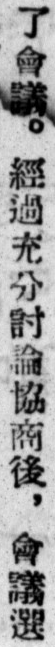了會議。經過充分討論協商後，會議選
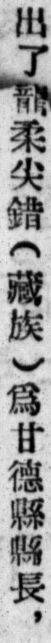出了龍柔尖錯（藏族）爲甘德縣縣長，
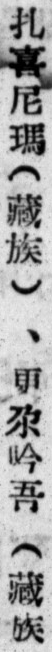扎喜尼瑪（藏族）、更尕吟吾（藏族
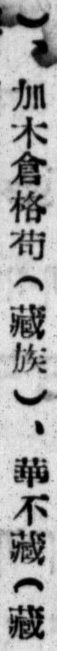）、加木倉格苟（藏族）、華不藏（藏
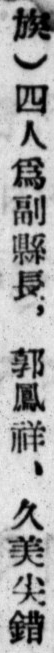族）四人爲副縣長，郭鳳祥、久美尖錯
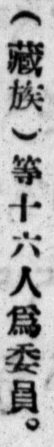（藏族）等十六人爲委員。
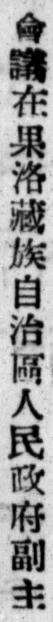會議在果洛藏族自治區人民政府副主
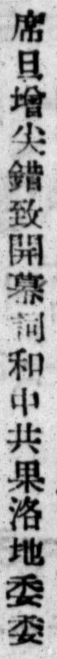席旦增尖錯致開幕詞和中共果洛地委委
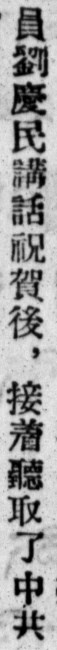員劉慶民講話祝賀後，接着聽取了中共
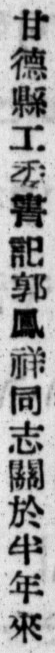甘德縣工委書記郭鳳祥同志關於半年來
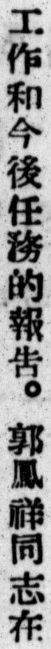工作和今後任務的報告。郭鳳祥同志在
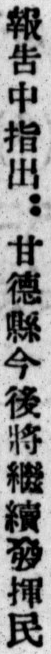報告中指出：甘德縣今後將繼續發揮民
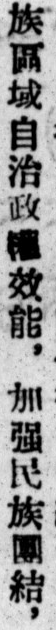族區域自治政權效能，加強民族團結，
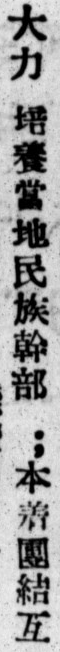大力 培養當地民族幹部 ；本着團結互
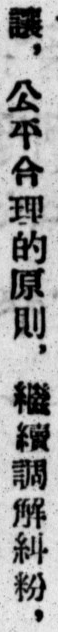讓，公平合理的原則，繼續調解糾紛，
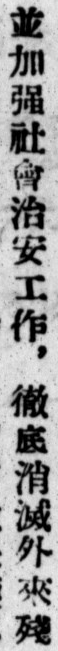並加強社會治安工作，徹底消滅外來殘
